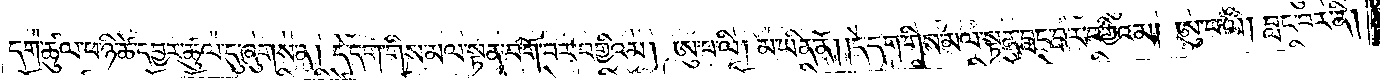དགེ་ཚུལ་ཕ་ཉི་ཚེ་དབྱར་ཚུལ་དུ་ཞུགས་ན། དེ་དག་གིས་མལ་སྟན་བགོ་བར་བགྱིའམ། ཨུ་པ་ལི། མ་ཡིན་ནོ། །དེ་དག་གིས་མལ་སྟན་བླང་བར་བགྱིའམ། ཨུ་པ་ལི། བླང་བར་ནི།
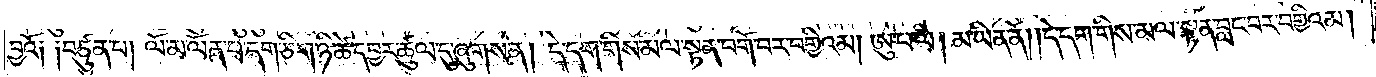བྱའོ༑ ༑བཙུན་པ། ལོ་མ་ལོན་པ་དག་ཅིག་ཉི་ཚེ་དབྱར་ཚུལ་དུ་ཞུགས་ན། དེ་དག་གིས་མལ་སྟན་བགོ་བར་བགྱིའམ། ཨུ་པ་ལི། མ་ཡིན་ནོ། །དེ་དག་གིས་མལ་སྟན་བླང་བར་བགྱིའམ།
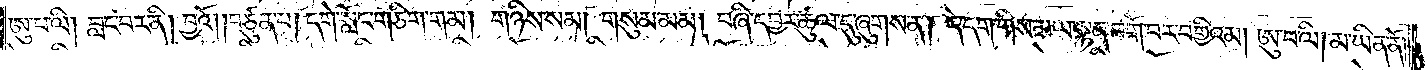ཨུ་པ་ལི། བླང་བར་ནི། བྱའོ། །བཙུན་པ། དགེ་སློང་གཅིག་གམ། གཉིས་སམ། གསུམ་མམ། བཞི་དབྱར་ཚུལ་དུ་ཞུགས་ན། དེ་དག་གིས་མལ་སྟན་བགོ་བར་བགྱིའམ། ཨུ་པ་ལི། མ་ཡིན་ནོ།
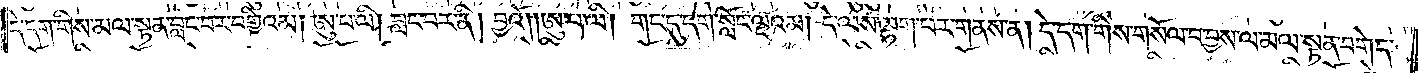དེ་དག་གིས་མལ་སྟན་བླང་བར་བགྱིའམ། ཨུ་པ་ལི། བླང་བར་ནི། བྱའོ། །ཨུ་པ་ལི། གང་དུ་དགེ་སློང་ལྔའམ། དེ་ལས་ལྷག་པར་གནས་ན། དེ་དག་གིས་གསོལ་བ་བྱས་ལ་མལ་སྟན་བགེད་
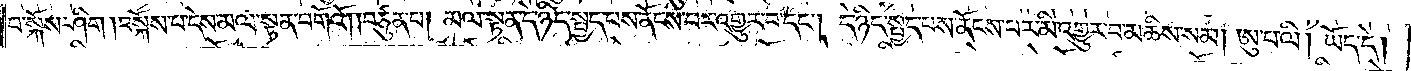བ་སྐོས་ཤིག །བསྐོས་པ་དེས་མལ་སྟན་བགོའོ། །བཙུན་པ། མལ་སྟན་དེ་ཉིད་སྤྱད་པས་ནོངས་པར་འགྱུར་བ་དང༌། དེ་ཉིད་སྤྱད་པས་ནོངས་པར་མི་འགྱུར་བ་མཆིས་སམ། ཨུ་པ་ལི། ཡོད་དེ།
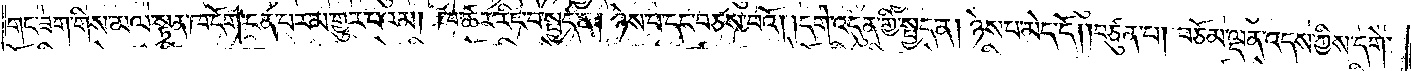གང་ཟག་གིས་མལ་སྟན་ཁ་དོག་ངན་པར་མ་གྱུར་པའམ། ཁ་ཚར་རིང་བ་སྤྱད་ན། ཉེས་པ་དང་བཅས་པའོ། །དགེ་འདུན་གྱི་སྤྱད་ན། ཉེས་པ་མེད་དོ། །བཙུན་པ། བཅོམ་ལྡན་འདས་ཀྱིས་དགེ་
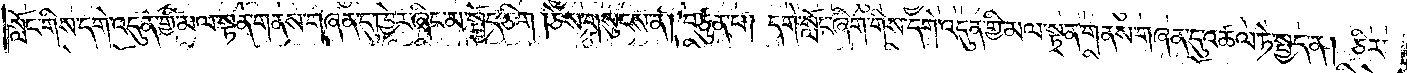སློང་གིས་དགེ་འདུན་གྱི་མལ་སྟན་གནས་གཞན་དུ་ཁྱེར་ཞིང་མ་སྤྱོད་ཅིག །ཅེས་གསུངས་ན། བཙུན་པ། དགེ་སློང་ཞིག་གིས་དགེ་འདུན་གྱི་མལ་སྟན་གནས་གཞན་དུ་འཚལ་ཏེ་སྤྱད་ན། ཅིར་
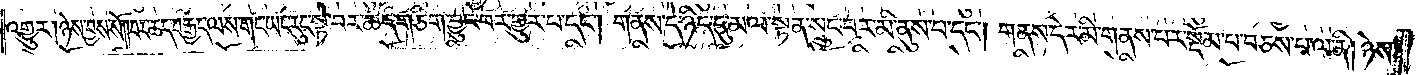འགྱུར། ཉེས་བྱས་སོ། །བར་ཆད་བརྒྱད་ལས་གང་ཡང་རུང་སྟེ་བར་ཆད་གཅིག་བྱུང་བར་གྱུར་པ་དང༌། གནས་དེ་ཉིད་དུ་མལ་སྟན་སྲུང་བར་མི་ནུས་པ་དང༌། གནས་དེར་མི་གནས་པར་སྡོམ་པ་བཅས་པ་ལ་ནི། ཉེས་
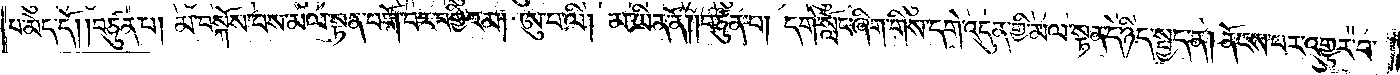པ་མེད་དོ། །བཙུན་པ། མ་བསྐོས་པས་མ་ལ་སྟན་བགོ་བར་བགྱིའམ། ཨུ་པ་ལི། མ་ཡིན་ནོ། །བཙུན་པ། དགེ་སློང་ཞིག་གིས་དགེ་འདུན་གྱི་མལ་སྟན་དེ་ཉིད་སྤྱད་ན། ནོངས་པར་འགྱུར་བ་
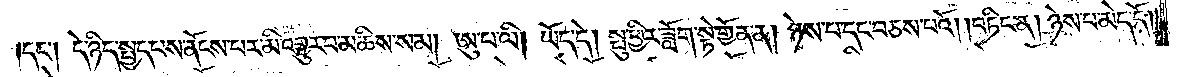དང༌། དེ་ཉིད་སྤྱད་པས་ནོངས་པར་མི་འགྱུར་བ་མ་ཆིས་སམ། ཨུ་པ་ལི། ཡོད་དེ། སྤུ་ཕྱིར་ཟློག་སྟེ་གྱོན་ན། ཉེས་པ་དང་བཅས་པའོ། །བཏིང་ན། ཉེས་པ་མེད་དོ༎
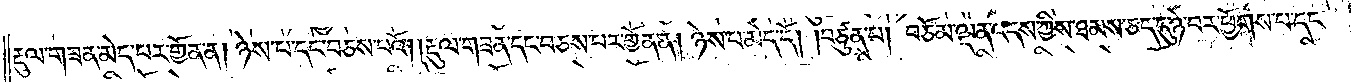རྡུལ་གཟན་མེད་པར་གྱོན་ན། ཉེས་པ་དང་བཅས་པའོ། །རྡུལ་གཟན་དང་བཅས་པར་གྱོན་ན། ཉེས་པ་མེད་དོ། །བཙུན་པ། བཅོམ་ལྡན་འདས་ཀྱིས་ཐམས་ཅད་དུ་ཉེ་བར་ཕྱོགས་པ་དང་
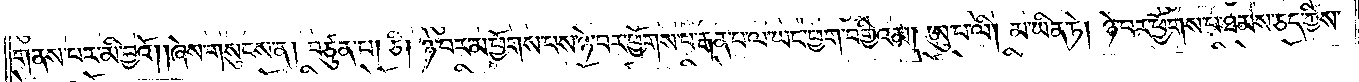གནས་པར་མི་བྱའོ། །ཞེས་གསུངས་ན། བཙུན་པ། ཅི། ཉེ་བར་མ་ཕྱོགས་པས་ཉེ་བར་ཕྱོགས་པ་རྒན་པ་ལ་ཡང་ཕྱག་བགྱིའམ། ཨུ་པ་ལི། མ་ཡིན་ཏེ། ཉེ་བར་ཕྱོགས་པ་ཐམས་ཅད་ཀྱིས་
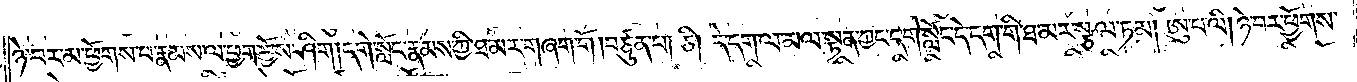ཉེ་བར་མ་ཕྱོགས་པ་རྣམས་ལ་ཕྱག་བྱོས་ཤིག །དགེ་སློང་རྣམས་ཀྱི་ཐ་མར་གཞག་གོ །བཙུན་པ། ཅི། དེ་དག་ལ་མལ་སྟན་ཀྱང་དགེ་སློང་དེ་དག་གི་ཐ་མར་སྩལ་ཏམ། ཨུ་པ་ལི། ཉེ་བར་ཕྱོགས་
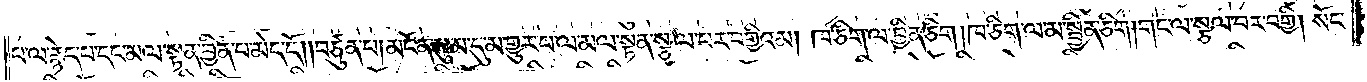པ་ལ་རྙེད་པ་དང་མལ་སྟན་བྱིན་པ་མེད་དོ། །བཙུན་པ། མངོན་སུམ་དུ་མ་གྱུར་པ་ལ་མལ་སྟན་སྩལ་པར་བགྱིའམ། ཁ་ཅིག་ལ་བྱིན་ཅིག །ཁ་ཅིག་ལ་མ་སྦྱིན་ཅིག །གང་ལ་སྩལ་བར་བགྱི། སོང་
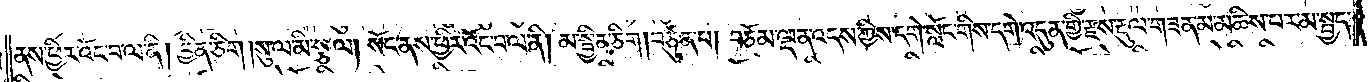ནས་ཕྱིར་འོང་བ་ལ་ནི། བྱིན་ཅིག །སུ་ལ་མི་སྩལ། སོང་ནས་ཕྱིར་འོང་བ་ལ་ནི། མ་སྦྱིན་ཅིག །བཙུན་པ། བཅོམ་ལྡན་འདས་ཀྱིས་དགེ་སློང་གིས་དགེ་འདུན་གྱི་རྫས་རྡུལ་གཟན་མ་མཆིས་པར་མ་སྤྱད་
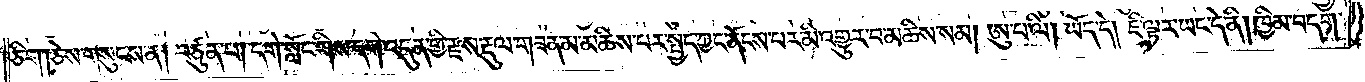ཅིག །ཅེས་གསུངས་ན། བཙུན་པ། དགེ་སློང་གིས་དགེ་འདུན་གྱི་རྫས་རྡུལ་གཟན་མ་མཆིས་པར་སྤྱད་ཀྱང་ནོངས་པར་མི་འགྱུར་བ་མཆིས་སམ། ཨ་པ་ལི། ཡོད་དེ། ཇི་ལྟར་ཡང་དེ་ནི། ཁྱིམ་བདག་
